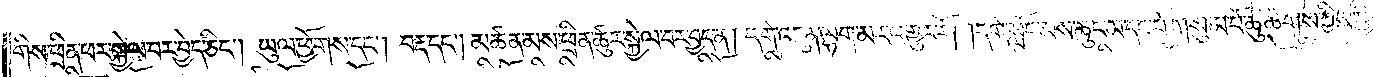གིས་ཕྲིན་ཕར་སྐྱེལ་བར་བྱེད་ཅིང༌། ཡུལ་ཕྱོགས་དང༌། བརྡ་དང༌། མཚན་མས་ཕྲིན་ཚུར་སྐྱེལ་བར་བྱེད་ན། དགེ་འདུན་ལྷག་མར་འགྱུར་རོ། །དགེ་སློང་མས་ཆུང་མ་དང་པོ་གསུམ་པོ་ཆུ་ཚིགས་ཀྱིས་
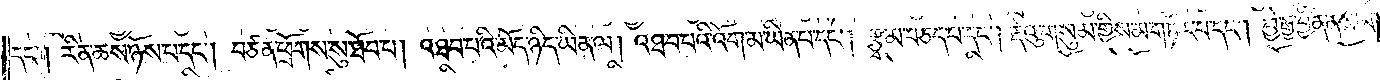དང༌། རིན་ཆས་ཉོས་པ་དང༌། བཙན་ཕྲོགས་སུ་ཐོབ་པ། འཐབ་པའི་མོད་ཉིད་ཡིན་ལ། འཐབ་པའི་འོག་མ་ཡིན་པ་དང༌། རྩྭ་མ་བཅད་པ་དང༌། རྡེའུ་གསུམ་གྱིས་མ་གཏོར་བ་དང༌། བྱེ་རྒྱ་བྱིན་ནས་མ་
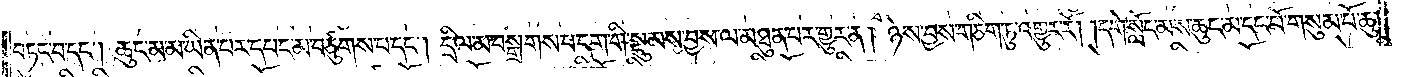བཏང་བ་དང༌། ཆུང་མ་མ་ཡིན་པར་དཔང་མ་བཙུགས་པ་དང༌། དྲིལ་མ་བསྒྲགས་པ་དག་གི་སྡུམས་བྱས་ལ་མཐུན་པར་གྱུར་ན། ཉེས་བྱས་གཅིག་ཏུ་འགྱུར་རོ། །དགེ་སློང་མས་ཆུང་མ་དང་པོ་གསུམ་པོ་ཆུ་
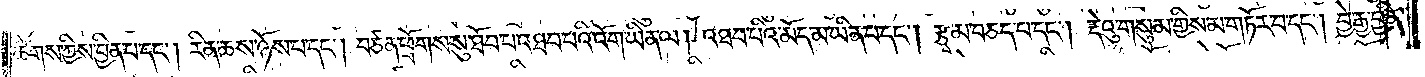ཚིགས་ཀྱིས་བྱིན་པ་དང༌། རིན་ཆས་ཉོས་པ་དང༌། བཙན་ཕྲོགས་སུ་ཐོབ་པ་འཐབ་པའི་འོག་ཡིན་ལ། འཐབ་པའི་མོད་མ་ཡིན་པ་དང༌། རྩྭ་མ་བཅད་པ་དང༌། རྡེའུ་གསུམ་གྱིས་མ་གཏོར་བ་དང༌། བྱེ་རྒྱ་བྱིན་
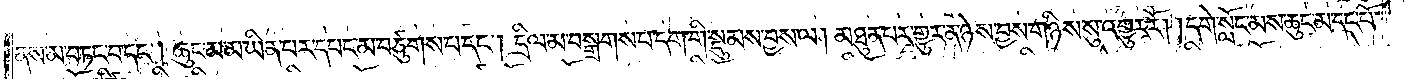ནས་མ་བཏང་བ་དང༌། ཆུང་མ་མ་ཡིན་པར་དཔང་མ་བཙུགས་པ་དང༌། དྲིལ་མ་བསྒྲགས་པ་དག་གི་སྡུམས་བྱས་ལ། མཐུན་པར་གྱུར་ན་ཉེས་བྱས་གཉིས་སུ་འགྱུར་རོ། །དགེ་སློང་མས་ཆུང་མ་དང་པོ་
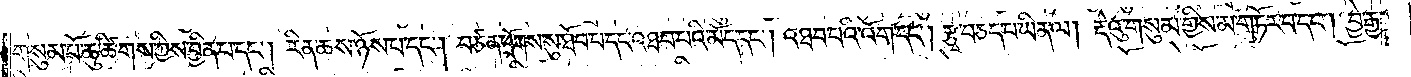གསུམ་པོ་ཆུ་ཚིགས་ཀྱིས་བྱིན་པ་དང༌། རིན་ཆས་ཉོས་པ་དང༌། བཙན་ཕྲོགས་སུ་ཐོབ་པ་དང་འཐབ་པའི་མོད་དང༌། འཐབ་པའི་འོག་དང༌། རྩྭ་བཅད་པ་ཡིན་ལ། རྡེའུ་གསུམ་གྱིས་མ་གཏོར་བ་དང༌། བྱེ་རྒྱ་
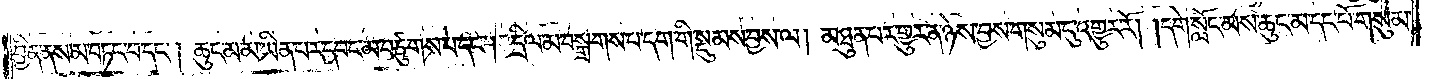བྱིན་ནས་མ་བཏང་བ་དང༌། ཆུང་མ་མ་ཡིན་པར་དབང་མ་བཙུགས་པ་དང༌། དྲིལ་མ་བསྒྲགས་པ་དག་གི་སྡུ་མས་བྱས་ལ། མཐུན་པར་གྱུར་ན་ཉེས་བྱས་གསུམ་དུ་འགྱུར་རོ། །དགེ་སློང་མས་ཆུང་མ་དང་པོ་གསུམ་
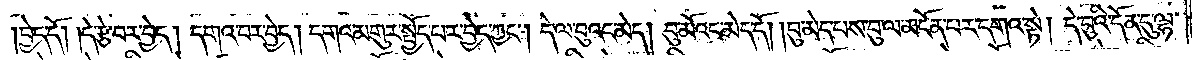བྱེད་དོ། །དེ་རྩེ་བར་བྱེད། དགའ་བར་བྱེད། དགའ་མགུར་སྤྱོད་པར་བྱེད་ཀྱང༌། དེ་ལ་བུའམ་མེད། བུ་མོའང་མེད་དོ། །བུ་མེད་པས་བུ་ལ་མངོན་པར་དགའ་སྟེ། དེ་བུའི་དོན་དུ་ལྷ་
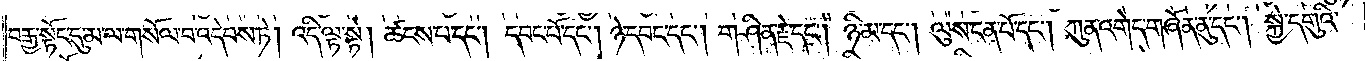བརྒྱ་སྟོང་དུ་མ་ལ་གསོལ་བ་འདེབས་ཏེ། འདི་ལྟ་སྟེ། ཚངས་པ་དང༌། དབང་པོ་དང༌། ཉེ་དབང་དང༌། གཤིན་རྗེ་དང༌། ཉི་མ་དང༌། ལུས་ངན་པོ་དང༌། ཀུན་འགེད་གཞོན་ནུ་དང༌། སྐྱེ་དགུའི་
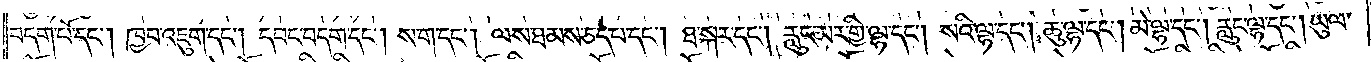བདག་པོ་དང༌། ཁྱབ་འཇུག་དང༌། དབང་བདག་དང༌། ས་ག་དང༌། ལས་ཐམས་ཅད་པ་དང༌། ཐ་སྐར་དང༌། རླུང་མར་གྱི་ལྷ་དང༌། སའི་ལྷ་དང༌། ཆུ་ལྷ་དང༌། མེ་ལྷ་དང༌། རླུང་ལྷ་དང༌། ཡུལ་
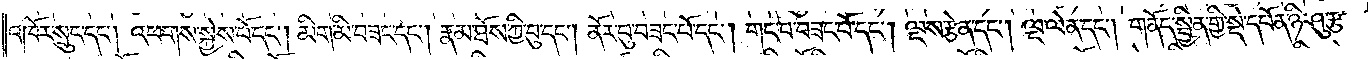འཁོར་སྲུང་དང༌། འཕགས་སྐྱེས་པོ་དང༌། མིག་མི་བཟང་དང༌། རྣམ་ཐོས་ཀྱི་བུ་དང༌། ནོར་བུ་བཟང་པོ་དང༌། གང་བ་བཟང་པོ་དང༌། ལྔས་རྩེན་དང༌། ལྔ་ལེན་དང༌། གནོད་སྦྱིན་གྱི་སྡེ་དཔོན་ཉི་ཤུ་རྩ་
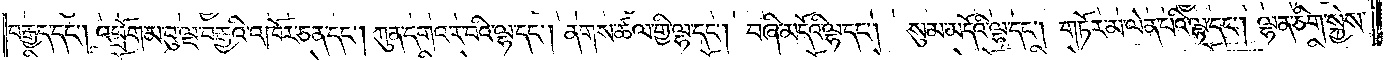བརྒྱད་དང༌། འཕྲོག་མ་བུ་ལྔ་བརྒྱའི་འཁོར་ཅན་དང༌། ཀུན་དགའ་ར་བའི་ལྷ་དང༌། ནགས་ཚལ་གྱི་ལྷ་དང༌། བཞི་མདོའི་ལྷ་དང༌། སུམ་མདོའི་ལྷ་དང༌། གཏོར་མ་ལེན་པའི་ལྷ་དང༌། ལྷན་ཅིག་སྐྱེས་
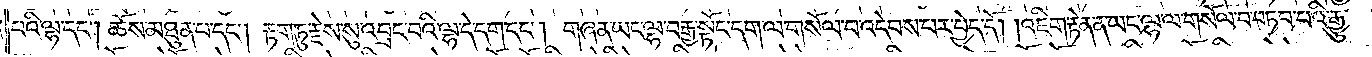བའི་ལྷ་དང༌། ཆོས་མཐུན་པ་དང༌། རྟག་ཏུ་རྗེས་སུ་འབྲང་བའི་ལྷ་དེ་དག་དང༌། གཞན་ཡང་ལྷ་བརྒྱ་སྟོང་དག་ལ་གསོལ་བ་འདེབས་པར་བྱེད་དོ། །འཇིག་རྟེན་ན་ཡང་ལྷ་ལ་གསོལ་བ་བཏབ་པའི་རྒྱུ་
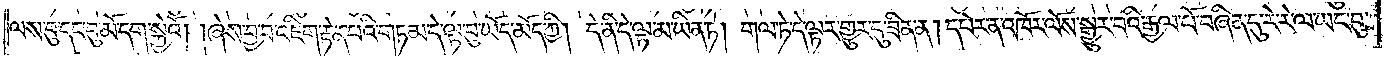ལས་བུ་དང་བུ་མོ་དག་སྐྱེའོ། །ཞེས་བྱ་བ་འཇིག་རྟེན་པའི་གཏམ་དེ་ལྟ་བུ་ཡོད་མོད་ཀྱི། དེ་ནི་དེ་ལྟ་མ་ཡིན་ཏེ། གལ་ཏེ་དེ་ལྟར་གྱུར་དུ་ཟིན་ན། དཔེར་ན་འཁོར་ལོས་སྒྱུར་བའི་རྒྱལ་པོ་བཞིན་དུ་རེ་རེ་ལ་ཡང་བུ་
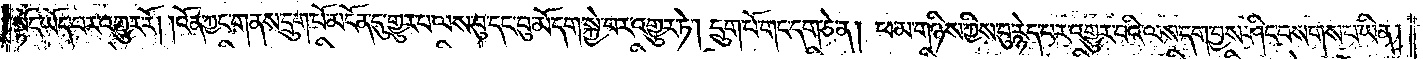སྟོང་ཡོད་པར་འགྱུར་རོ། །འོན་ཀྱང་གནས་དྲུག་པོ་མངོན་དུ་གྱུར་པ་ལས་བུ་དང་བུ་མོ་དག་སྐྱེ་བར་འགྱུར་ཏེ། དྲུག་པོ་གང་དག་ཅེ་ན། ཕ་མ་གཉིས་ཀྱིས་བུ་རྙེད་པར་འགྱུར་བའི་ལས་དག་བྱས་ཤིང་བསགས་པ་ཡིན།
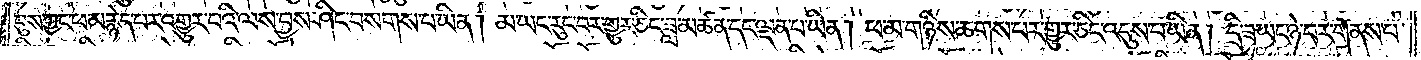བུས་ཀྱང་ཕ་མ་རྙེད་པར་འགྱུར་བའི་ལས་བྱས་ཤིང་བསགས་པ་ཡིན། མ་ཡང་རུང་བར་གྱུར་ཅིང་ཟླ་མཚན་དང་ལྡན་པ་ཡིན། ཕ་མ་གཉིས་ཆགས་པར་གྱུར་ཅིང་འདུས་པ་ཡིན། དྲི་ཟ་ཡང་ཉེ་བར་གནས་པ་
